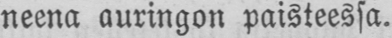neena auringon paisteessa.
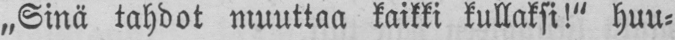„Sinä tahdot muuttaa kaikki kullaksi!" huu-
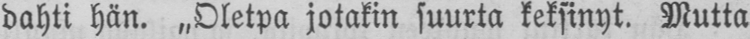dahti hän. „Oletpa jotakin suurta keksinyt. Mutta
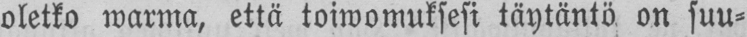oletko warma, että toiwomuksesi täytäntö on suu-
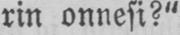rin onnesi?"
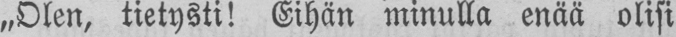„Olen, tietysti! Eihän minulla enää olisi
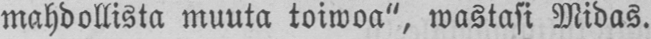mahdollista muuta toiwoa", wastasi Midas.
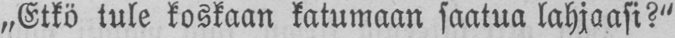„Etkö tule koskaan katumaan saatua lahjaasi?"
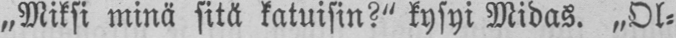„Miksi minä sitä katuisin?" kysyi Midas. „Ol-
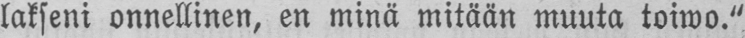lakseni onnellinen, en minä mitään muuta toiwo."
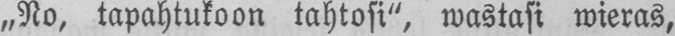„No, tapahtukoon tahtosi", wastasi wieras,
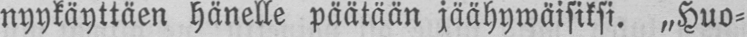nyykäyttäen hänelle päätään jäähywäisiksi. „Huo-
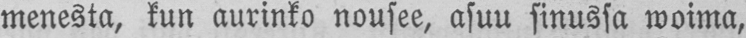menesta, kun aurinko nousee, asuu sinussa woima,
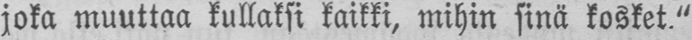joka muuttaa kullaksi kaikki, mihin sinä kosket."
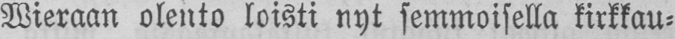Wieraan olento loisti nyt semmoisella kirkkau-
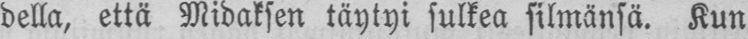della, että Midaksen täytyi sulkea silmänsä. Kun
